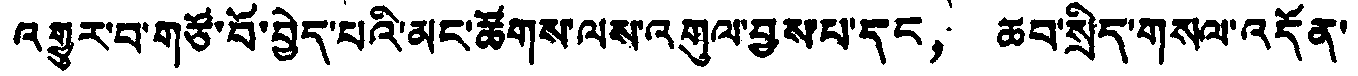འགྱུར་བ་གཙོ་བོ་བྱེད་པའི་མང་ཚོགས་ལས་འགུལ་བྱས་པ་དང， ཆབ་སྲིད་གསལ་འདོན་
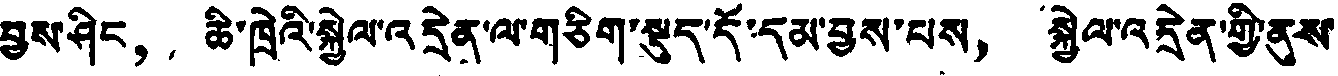བྱས་ཤིང， ཆི་ཁྲེའི་སྐྱེལ་འདྲེན་ལ་གཅིག་སྡུད་དོ་དམ་བྱས་པས， སྐྱེལ་འདྲེན་གྱི་ནུས་
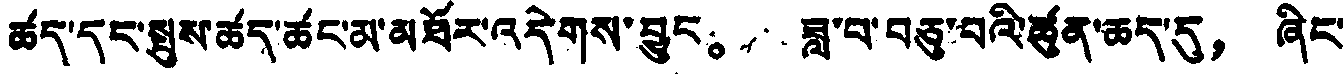ཚད་དང་སྤུས་ཚད་ཚང་མ་མཐོར་འདེགས་བྱུང。 ཟླ་བ་བཅུ་བའི་ཚུན་ཆད་དུ， ཞིང་
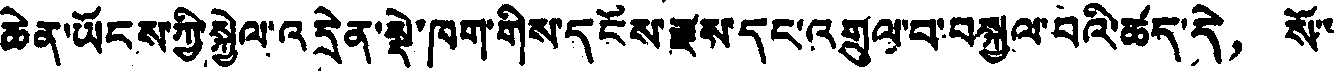ཆེན་ཡོངས་ཀྱི་སྐྱེལ་འདྲེན་སྡེ་ཁག་གིས་དངོས་རྫས་དང་འགྲུལ་བ་བསྐྱལ་བའི་ཚད་དེ， སོ་
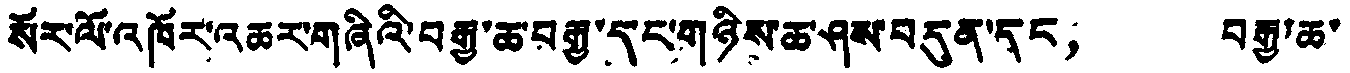སོར་ལོ་འཁོར་འཆར་གཞིའི་བརྒྱ་ཆ་བརྒྱ་དང་གཉིས་ཆ་ཤས་བདུན་དང， བརྒྱ་ཆ་
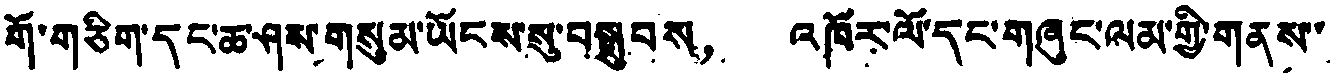གོ་གཅིག་དང་ཆ་ཤས་གསུམ་ཡོངས་སུ་བསྒྲུབས， འཁོར་ལོ་དང་གཞུང་ལམ་གྱི་གནས་
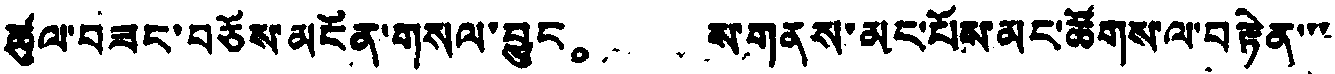ཚུལ་བཟང་བཅོས་མངོན་གསལ་བྱུང。 ས་གནས་མང་པོས་མང་ཚོགས་ལ་བརྟེན་་་་
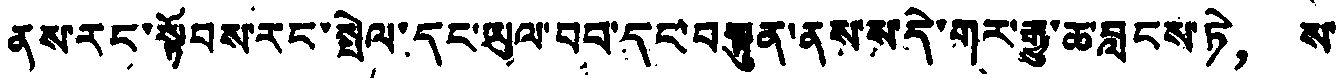ནས་རང་སྟོབས་རང་སྤེལ་དང་ཡུལ་བབ་དང་བསྟུན་ནས་ས་དེ་གར་རྒྱུ་ཆ་བླངས་ཏེ， ས་
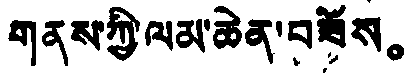གནས་ཀྱི་ལམ་ཆེན་བཟོས。
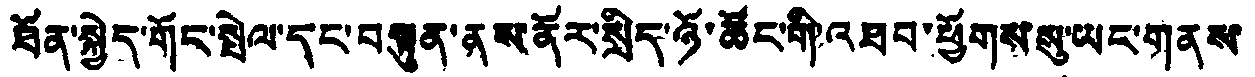ཐོན་སྐྱེད་གོང་སྤེལ་དང་བསྟུན་ནས་ནོར་སྲིད་ཉོ་ཚོང་གི་འཐབ་ཕྱོགས་སུ་ཡང་གནས་
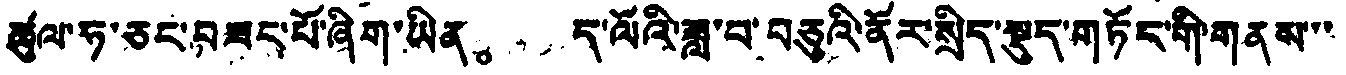ཚུལ་ཧ་ཅང་བཟང་པོ་ཞིག་ཡིན。 ད་ལོའི་ཟླ་བ་བཅུའི་ནོར་སྲིད་སྡུད་གཏོང་གི་གནས་་
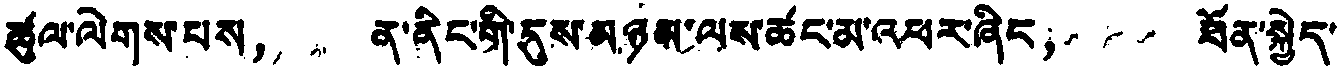ཚུལ་ལེགས་པས， ན་ནིང་གི་དུས་མཉམ་ལས་ཚང་མ་འཕར་ཞིང， ཐོན་སྐྱེད་
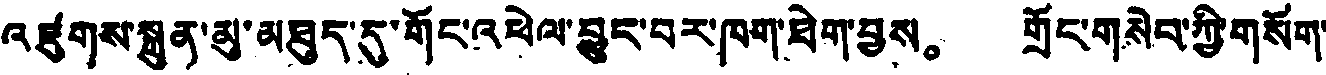འཛུགས་སྐྲུན་མུ་མཐུད་དུ་གོང་འཕེལ་བྱུང་བར་ཁག་ཐེག་བྱས。 གྲོང་གསེབ་ཀྱི་གསོག་
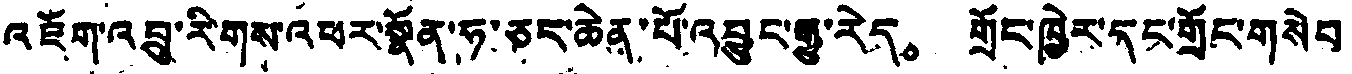འཇོག་འབྲུ་རིགས་འཕར་སྣོན་ཧ་ཅང་ཆེན་པོ་འབྱུང་རྒྱུ་རེད。 གྲོང་ཁྱེར་དང་གྲོང་གསེབ་
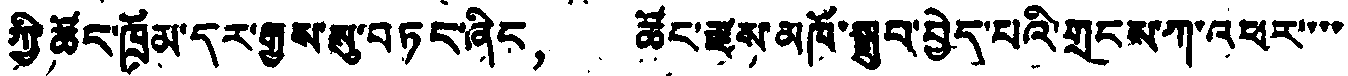ཀྱི་ཚོད་ཁྲོམ་དར་རྒྱས་སུ་བཏང་ཞིང， ཚོང་རྫས་མཁོ་སྒྲུབ་བྱེད་པའི་གྲངས་ཀ་འཕར་་་་
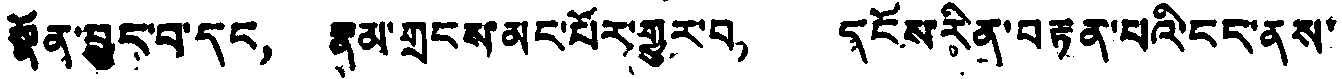སྣོན་བྱུང་བ་དང， རྣམ་གྲངས་མང་པོར་གྱུར་བ， དངོས་རིན་བརྟན་པའི་ངང་ནས་
